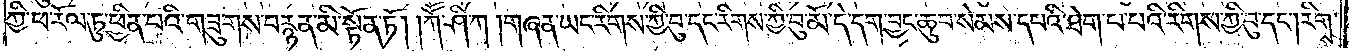ཀྱི་ཕ་རོལ་ཏུ་ཕྱིན་པའི་གཟུགས་བརྙན་མི་སྟོན་ཏོ། །ཀཽ་ཤི་ཀ། གཞན་ཡང་རིགས་ཀྱི་བུ་དང་རིགས་ཀྱི་བུ་མོ་དེ་དག་བྱང་ཆུབ་སེམས་དཔའི་ཐེག་པ་པའི་རིགས་ཀྱི་བུ་དང༌། རིགས་
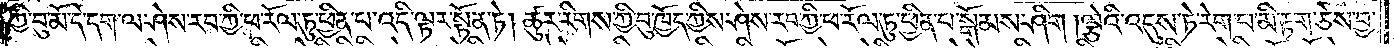ཀྱི་བུ་མོ་དེ་དག་ལ་ཤེས་རབ་ཀྱི་ཕ་རོལ་ཏུ་ཕྱིན་པ་འདི་ལྟར་སྟོན་ཏེ། ཚུར་རིགས་ཀྱི་བུ་ཁྱོད་ཀྱིས་ཤེས་རབ་ཀྱི་ཕ་རོལ་ཏུ་ཕྱིན་པ་སྒོམས་ཤིག །ལྕེའི་འདུས་ཏེ་རེག་པ་མི་རྟག་ཅེས་བྱ་
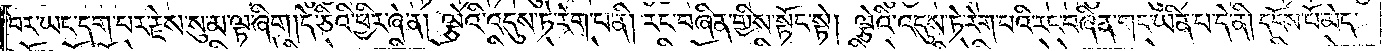བར་ཡང་དག་པར་རྗེས་སུ་མ་ལྟ་ཞིག །དེ་ཅིའི་ཕྱིར་ཞེ་ན། ལྕེའི་འདུས་ཏེ་རེག་པ་ནི། རང་བཞིན་གྱིས་སྟོང་སྟེ། ལྕེའི་འདུས་ཏེ་རེག་པའི་རང་བཞིན་གང་ཡིན་པ་དེ་ནི། དངོས་པོ་མེད་
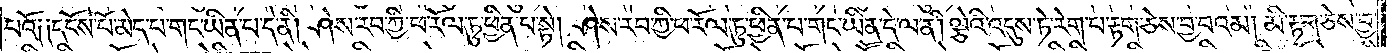པའོ༑ ༑དངོས་པོ་མེད་པ་གང་ཡིན་པ་དེ་ནི། ཤེས་རབ་ཀྱི་ཕ་རོལ་ཏུ་ཕྱིན་པ་སྟེ། ཤེས་རབ་ཀྱི་ཕ་རོལ་ཏུ་ཕྱིན་པ་གང་ཡིན་དེ་ལ་ནི། ལྕེའི་འདུས་ཏེ་རེག་པ་རྟག་ཅེས་བྱ་བའམ། མི་རྟག་ཅེས་བྱ་
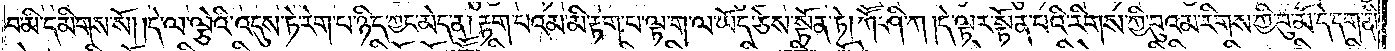བ་མི་དམིགས་སོ། །དེ་ལ་ལྕེའི་འདུས་ཏེ་རེག་པ་ཉིད་ཀྱང་མེད་ན། རྟག་པའམ་མི་རྟག་པ་ལྟ་ག་ལ་ཡོད་ཅེས་སྟོན་ཏེ། ཀཽ་ཤི་ཀ། དེ་ལྟར་སྟོན་པའི་རིགས་ཀྱི་བུའམ་རིགས་ཀྱི་བུ་མོ་དེ་དག་ནི།
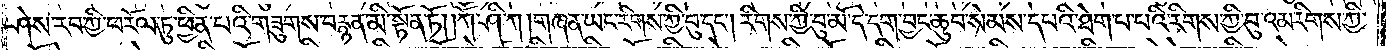ཤེས་རབ་ཀྱི་ཕ་རོལ་ཏུ་ཕྱིན་པའི་གཟུགས་བརྙན་མི་སྟོན་ཏོ། །ཀཽ་ཤི་ཀ། གཞན་ཡང་རིགས་ཀྱི་བུ་དང༌། རིགས་ཀྱི་བུ་མོ་དེ་དག་བྱང་ཆུབ་སེམས་དཔའི་ཐེག་པ་པའི་རིགས་ཀྱི་བུའམ་རིགས་ཀྱི་
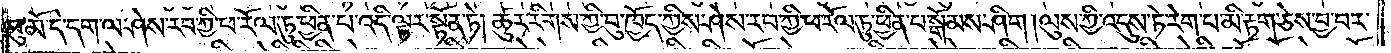བུ་མོ་དེ་དག་ལ་ཤེས་རབ་ཀྱི་ཕ་རོལ་ཏུ་ཕྱིན་པ་འདི་ལྟར་སྟོན་ཏེ། ཚུར་རིགས་ཀྱི་བུ་ཁྱོད་ཀྱིས་ཤེས་རབ་ཀྱི་ཕ་རོལ་ཏུ་ཕྱིན་པ་སྒོམས་ཤིག །ལུས་ཀྱི་འདུས་ཏེ་རེག་པ་མི་རྟག་ཅེས་བྱ་བར་
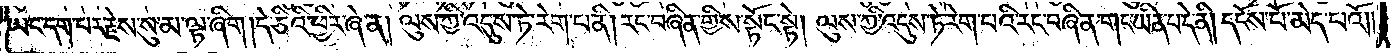ཡང་དག་པར་རྗེས་སུ་མ་ལྟ་ཞིག །དེ་ཅིའི་ཕྱིར་ཞེ་ན། ལུས་ཀྱི་འདུས་ཏེ་རེག་པ་ནི། རང་བཞིན་གྱིས་སྟོང་སྟེ། ལུས་ཀྱི་འདུས་ཏེ་རེག་པའི་རང་བཞིན་གང་ཡིན་པ་དེ་ནི། དངོས་པོ་མེད་པའོ། །
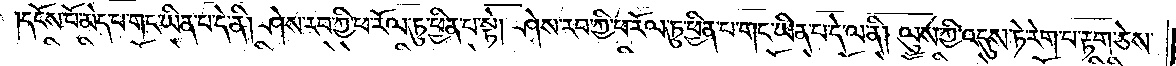དངོས་པོ་མེད་པ་གང་ཡིན་པ་དེ་ནི། ཤེས་རབ་ཀྱི་ཕ་རོལ་ཏུ་ཕྱིན་པ་སྟེ། ཤེས་རབ་ཀྱི་ཕ་རོལ་ཏུ་ཕྱིན་པ་གང་ཡིན་པ་དེ་ལ་ནི། ལུས་ཀྱི་འདུས་ཏེ་རེག་པ་རྟག་ཅེས་
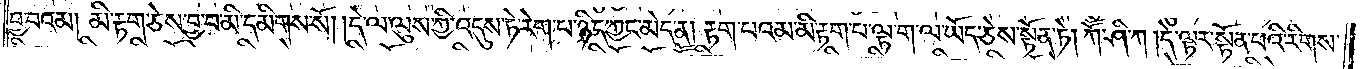བྱ་བའམ། མི་རྟག་ཅེས་བྱ་བ་མི་དམིགས་སོ། །དེ་ལ་ལུས་ཀྱི་འདུས་ཏེ་རེག་པ་ཉིད་ཀྱང་མེད་ན། རྟག་པའམ་མི་རྟག་པ་ལྟ་ག་ལ་ཡོད་ཅེས་སྟོན་ཏེ། ཀཽ་ཤི་ཀ། དེ་ལྟར་སྟོན་པའི་རིགས་
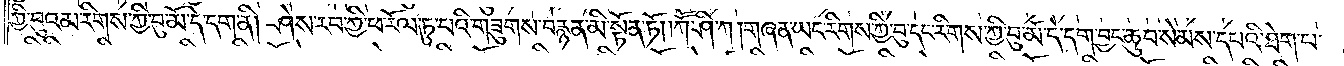ཀྱི་བུའམ་རིགས་ཀྱི་བུ་མོ་དེ་དག་ནི། ཤེས་རབ་ཀྱི་ཕ་རོལ་ཏུ་ཕྱིན་པའི་གཟུགས་བརྙན་མི་སྟོན་ཏོ། །ཀཽ་ཤི་ཀ། གཞན་ཡང་རིགས་ཀྱི་བུ་དང་རིགས་ཀྱི་བུ་མོ་དེ་དག་བྱང་ཆུབ་སེམས་དཔའི་ཐེག་པ་
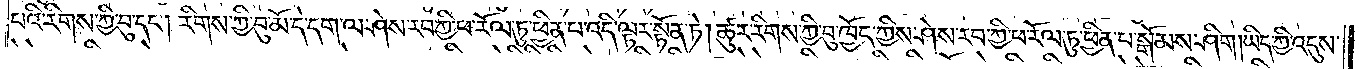པའི་རིགས་ཀྱི་བུ་དང༌། རིགས་ཀྱི་བུ་མོ་དེ་དག་ལ་ཤེས་རབ་ཀྱི་ཕ་རོལ་ཏུ་ཕྱིན་པ་འདི་ལྟར་སྟོན་ཏེ། ཚུར་རིགས་ཀྱི་བུ་ཁྱོད་ཀྱིས་ཤེས་རབ་ཀྱི་ཕ་རོལ་ཏུ་ཕྱིན་པ་སྒོམས་ཤིག །ཡིད་ཀྱི་འདུས་
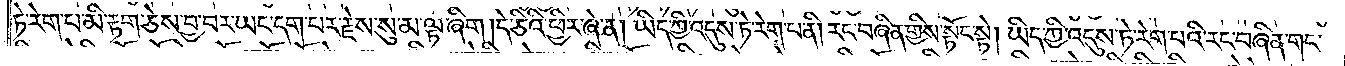ཏེ་རེག་པ་མི་རྟག་ཅེས་བྱ་བར་ཡང་དག་པར་རྗེས་སུ་མ་ལྟ་ཞིག །དེ་ཅིའི་ཕྱིར་ཞེ་ན། ཡིད་ཀྱི་འདུས་ཏེ་རེག་པ་ནི། རང་བཞིན་གྱིས་སྟོང་སྟེ། ཡིད་ཀྱི་འདུས་ཏེ་རེག་པའི་རང་བཞིན་གང་
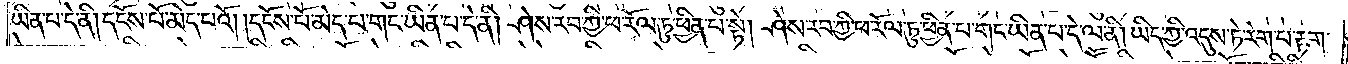ཡིན་པ་དེ་ནི། དངོས་པོ་མེད་པའོ། །དངོས་པོ་མེད་པ་གང་ཡིན་པ་དེ་ནི། ཤེས་རབ་ཀྱི་ཕ་རོལ་ཏུ་ཕྱིན་པ་སྟེ། ཤེས་རབ་ཀྱི་ཕ་རོལ་ཏུ་ཕྱིན་པ་གང་ཡིན་པ་དེ་ལ་ནི། ཡིད་ཀྱི་འདུས་ཏེ་རེག་པ་རྟག་
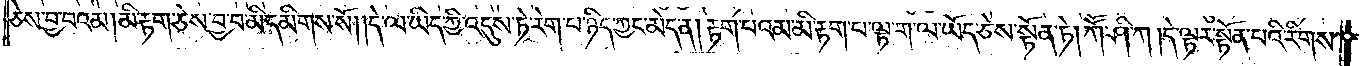ཅེས་བྱ་བའམ། མི་རྟག་ཅེས་བྱ་བ་མི་དམིགས་སོ། །དེ་ལ་ཡིད་ཀྱི་འདུས་ཏེ་རེག་པ་ཉིད་ཀྱང་མེད་ན། རྟག་པའམ་མི་རྟག་པ་ལྟ་ག་ལ་ཡོད་ཅེས་སྟོན་ཏེ། ཀཽ་ཤི་ཀ། དེ་ལྟར་སྟོན་པའི་རིགས་
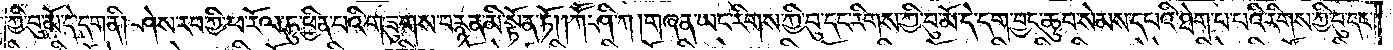ཀྱི་བུ་མོ་དེ་དག་ནི། ཤེས་རབ་ཀྱི་ཕ་རོལ་ཏུ་ཕྱིན་པའི་གཟུགས་བརྙན་མི་སྟོན་ཏོ། །ཀཽ་ཤི་ཀ། གཞན་ཡང་རིགས་ཀྱི་བུ་དང་རིགས་ཀྱི་བུ་མོ་དེ་དག་བྱང་ཆུབ་སེམས་དཔའི་ཐེག་པ་པའི་རིགས་ཀྱི་བུ་དང་
